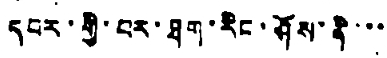དབར་གྱི་བར་ཐག་རིང་ཤོས་ནི་་་
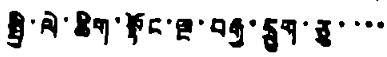སྤྱི་ལེ་ཆིག་སྟོང་ལྔ་བརྒྱ་དྲུག་ཅུ་་་་
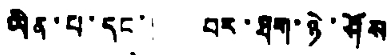ཡིན་པ་དང་། བར་ཐག་ཉེ་ཤོས
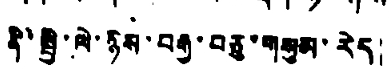ནི་སྤྱི་ལེ་ཉིས་བརྒྱ་བཅུ་གསུམ་རེད།
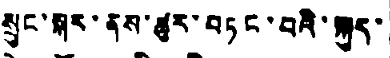སྲུང་སྐར་ནས་ཚུར་བཏང་བའི་སྐུད་
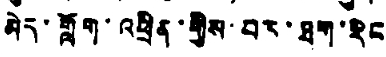མེད་གློག་འཕྲིན་གྱིས་བར་ཐག་རིང
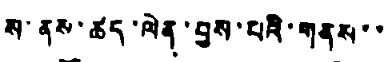ས་ནས་ཚད་ལེན་བྱས་པའི་གནས་་
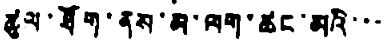ཚུལ་ཐོག་ནས་མ་ལག་ཚང་མའི་་་
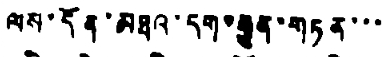ལས་དོན་མཐའ་དག་རྒྱུན་གཏན་་་
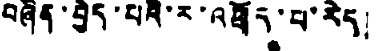བཞིན་བྱེད་པའི་ར་འཕྲོད་པ་རེད།
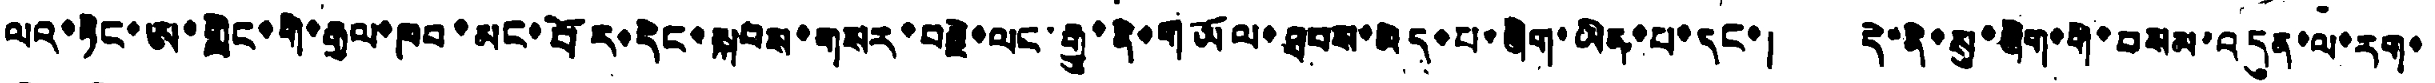ལའ་ཏིང་ཨ་གླིང་གི་རྒྱལ་ཁབ་མང་པོར་དེང་སྐབས་གསར་བརྗེ་ལང་རྒྱུ་ནི་གཡོལ་ཐབས་མེད་པ་ཞིག་ཡིན་པ་དང་། དེ་ནི་སུ་ཞིག་གི་བསམ་འདུན་ལ་རག་
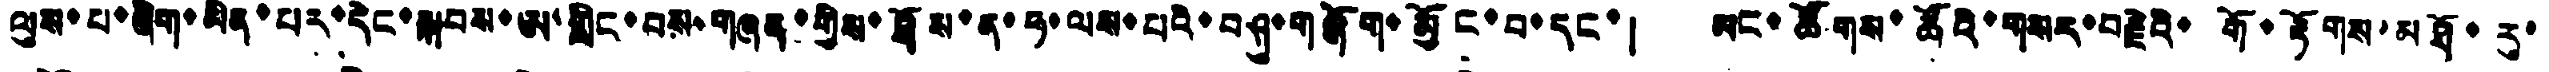ལུས་པ་ཞིག་མིན་པར་དེང་སྐབས་ཨ་གླིང་བས་གཞན་གྱིས་ཐོས་ན་ཧ་ལས་པའི་བཤུ་གཞོག་མྱོང་བ་དང་། མང་ཚོགས་ཚོའི་གསར་བརྗེའི་གོ་རྟོགས་མཐོ་རུ་
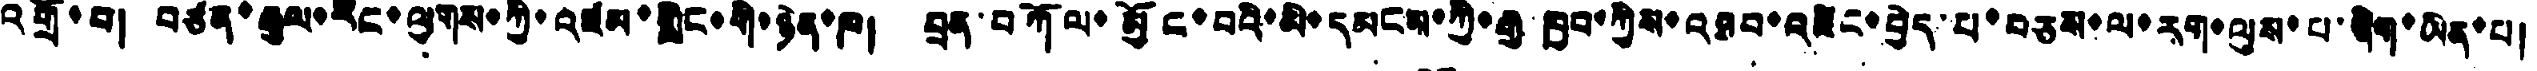འགྲོ་བ། བཙན་རྒྱལ་རིང་ལུགས་ཀྱི་འཛམ་གླིང་གི་ཉེན་ཁ། བྲན་བཀོལ་མྱོང་བའི་མི་དམངས་ཀྱི་རྒྱ་ཁྱབ་ཀྱིས་འཐབ་འཛིང་བྱེད་པ་བཅས་ལ་རག་ལུས་པ་ཞིག་ཡིན་པ།
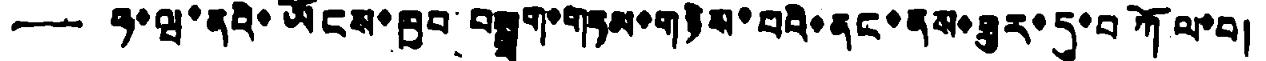—— ཧ་ཝ་ནའི་ཡོངས་ཁྱབ་བསྒྲག་གཏམ་གཉེས་པའི་ནང་ནས་ཟུར་དུ་བཀོལ་བ།
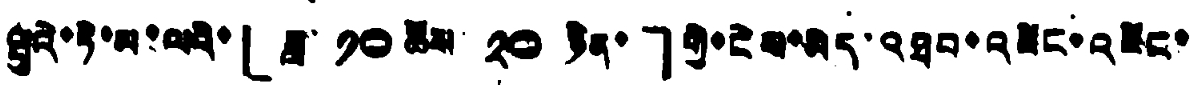ཝུའེ་ཏི་མ་ལའི་「ཟླ་ ༡༠ ཚེས་ ༢༠ ཉིན་」གྱི་ངེས་མེད་འཐབ་འཛིང་འཛིང་
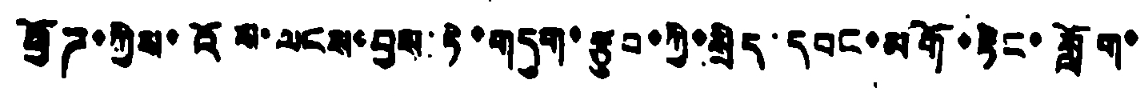ཕྱོཌ་ཀྱིས་འོས་ལངས་བྱས་ཏེ་གདུག་རྩུབ་ཀྱི་སྲིད་དབང་མགོ་རྟིང་སློག་
